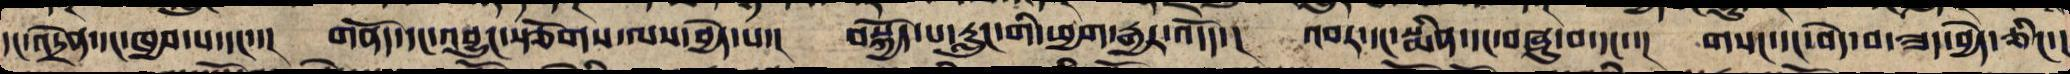དང་འདྲེན་དང་ཁྱབ་པ་དང་་། གནོད་དང་འབྱུང་རྩོགས་ལས་བྱེད་པ་། བསྐྱོད་པ་རླུང་གི་ཕྱག་རྒྱར་འདོད་། འབར་དང་སྨིན་དང་བཞུ་བ་དང་་། གསང་དང་བདེ་བ་ཟད་བྱེད་ཅིང་་།
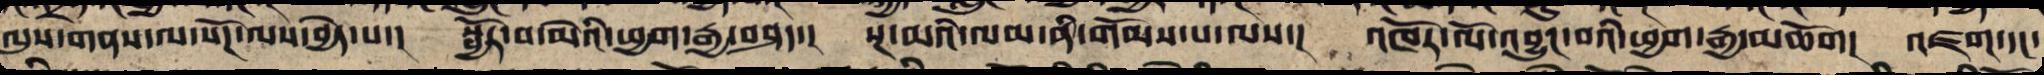ལུས་གནས་ལ་སོཌ་ལས་བྱེད་པ་། སྦྱོར་བ་མེ་ཡི་ཕྱག་རྒྱ་བཤད་། སྔ་མའི་ལམ་ནི་གོམས་པ་ལས་། འཁོར་ལོ་འབྱུང་བའི་ཕྱག་རྒྱ་མཆོག། འཛག་དང་
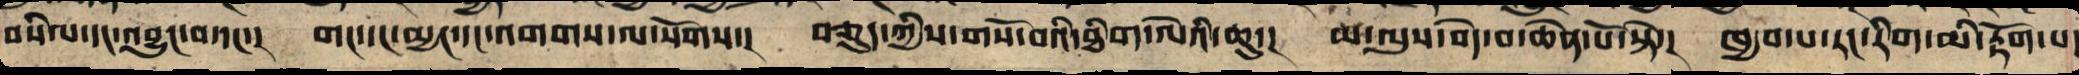བསིལ་དང་འབྱུང་བ་དང་་། གང་དང་མྱང་དང་འགགས་ལ་སོགས་། བཅུད་ཀྱི་གསོ་བའི་ཐིག་ལེའི་ཆུ་། མ་ལུས་བདེ་བ་ཆེན་པོ་སྟེ་། ཁྱབ་པ་རང་རིག་མི་རྟོག་པ་
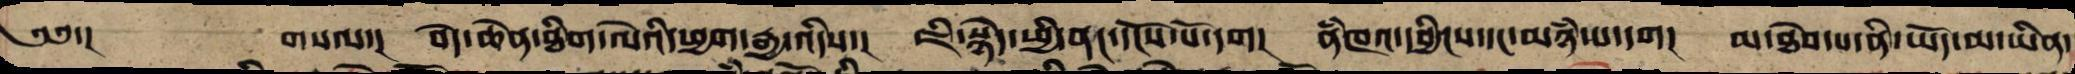༄༅་། གསལ་། བདེ་ཆེན་ཐིག་ལེའི་ཕྱག་རྒྱ་འདིས་། ཇི་སྙེད་ཕྱི་ནང་དངོས་པོ་དག། ནཾཁའི་དབྱིངས་དང་མཉམ་པ་དག། མ་ཐེབ་པ་ནི་ཡོད་མ་ཡིན་
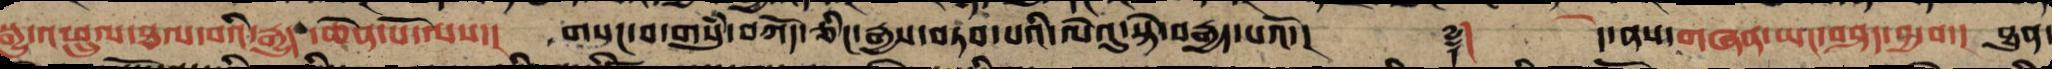སྒྱུ་འཕྲུལ་ཐལ་བའི་རྒྱུད་ཆེན་པོ་ལས་། གསང་བ་གསུཾ་བཀོད་ཅིང་རྒྱས་བཏབ་པའི་ལེའུ་སྟེ་བརྒྱད་པའོ་།། ༈། དེ་ནས་གཞན་ཡང་བཤད་བྱ་བ་། ཐུན་
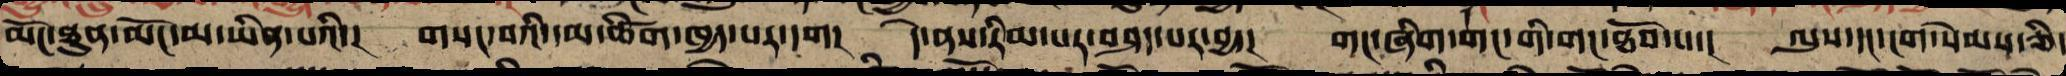མོང་ཐུན་མོང་མ་ཡིན་པའི་། གསང་བའི་དམ་ཚིག་ཁྱད་པར་དག། དེ་ནས་རིམ་པར་བཤད་པར་བྱ་། གང་ཞིག་གང་གིས་གང་ཐོབ་པ་། ལུས་དང་ངག་སེམས་ཅི་
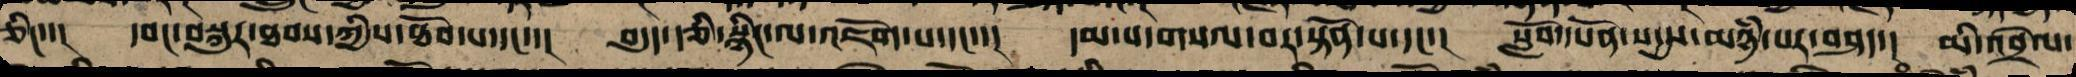ཅིང་་། དབང་བསྐུར་ཐབས་ཀྱིས་ཐོབ་པ་དང་་། བདུད་རྩི་སྙིང་ལ་འཇོག་པ་དང་་། དམ་པ་གསལ་བར་སྟོན་པ་དང་་། སློབ་དཔོན་སདྱས་མཉཾ་པར་བཤད་། མི་འབྲེལ་
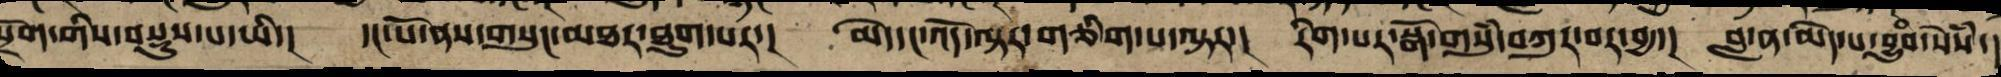སྲོག་གིས་བསྡུས་པ་ཡི་། དང་པོ་ནས་གསུང་མཐར་ཐུག་པར་། མེད་དང་འོད་དག་གཅིག་པ་ལྟར་། རིག་པར་སྒོ་གསུཾ་བཀུར་བར་བྱ་། བླ་ན་མེད་པ་བྱུཾབ་སེཾས་།
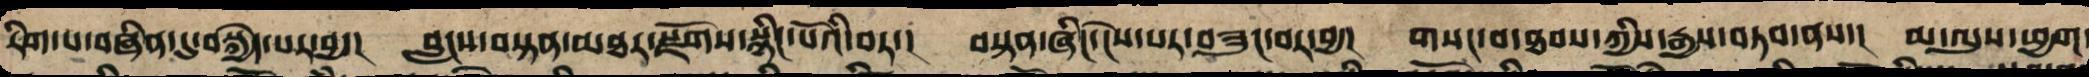རིམ་པ་བཞིན་དུ་བསྐྱེད་པར་བྱ་། བླངས་བསྟན་མཐར་སྫོགས་སྙིང་པོའི་བར་། བསྟན་ཞིང་ངེས་པར་གཟུང་བར་བྱ་། གསང་བ་ཐབས་ཀྱི་རྒྱས་བཏབ་ནས་། མ་ལུས་ཕྱག
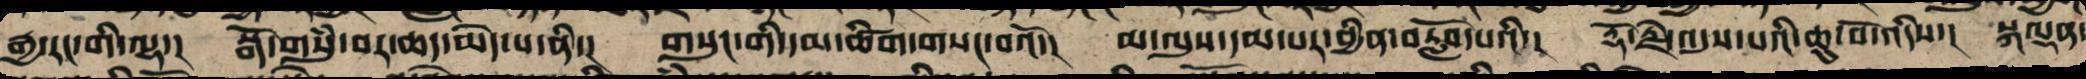རྒྱ་རང་གི་ལྷ་། སྒོ་གསུཾ་བར་ཆད་མེད་པ་ནི་། གསུང་གི་དམ་ཚིག་གསང་བའོ་། མ་ལུས་དམ་པར་ཕྱིན་བརློབ་པའི་། རྡོ་རྗེ་འདུས་པའི་ཆུ་བོ་འདིས་། སྐལྡན་
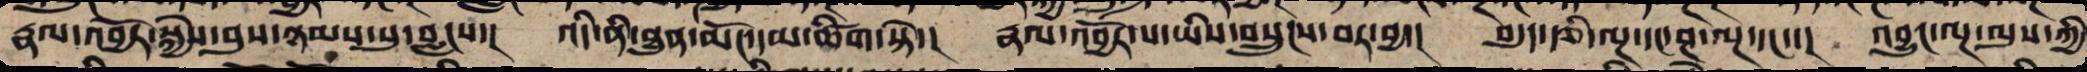རྣལ་འབྱོར་སྐྱེས་བུས་ཉམས་སུ་བླངས་། འདི་ནི་ཐུན་མོང་དམ་ཚིག་སྟེ་། རྣལ་འབྱོར་པ་ཡིས་བསྲུང་བར་བྱ་། བདུད་རྩི་ལྔ་དང་ཤ་ལྔ་དང་་། འབྱུང་ལྔ་ལུས་ཀྱི
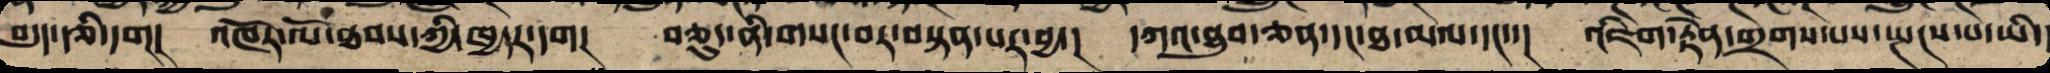བདུད་རྩི་དག། འཁོར་ལོ་ཐབས་ཀྱི་ཁྱདཔར་དག། བཅུད་ནི་གསང་བར་བརྟེན་པར་བྱ་། དཀའ་ཐུབ་ཅན་དང་ཐ་མལ་དང་་། འཇིག་རྟེན་གྲགས་པས་སྤངས་པ་ཡི་
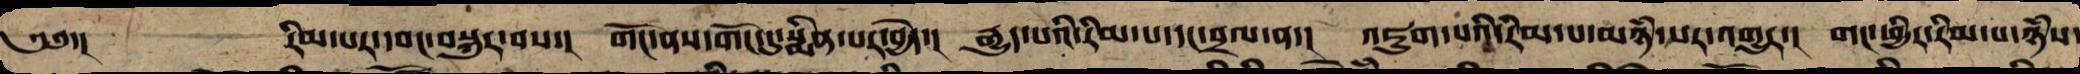༄༅་། རིམ་པར་དབང་བསྐུར་བས་། གོང་ནས་གོང་དུ་སྨིན་པར་བྱེད་། རྒྱུད་པའི་རིམ་པ་དང་བྲལ་ན་། འཇུག་པའི་རིམ་པ་ཉཾ་པར་འགྱུར་། གང་ཕྱིར་རིམ་པ་ཉཾས
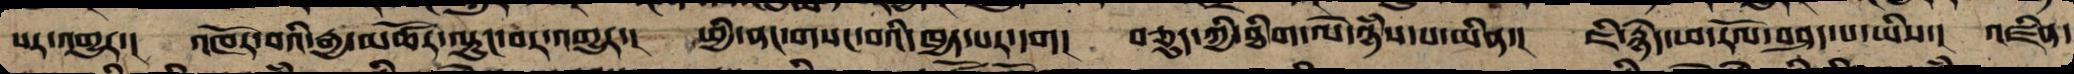པར་འགྱུར་། འཁོར་བའི་རྒྱ་མཚོར་ལྟུང་བར་འགྱུར་། ཕྱི་ནང་གསང་བའི་ཁྱད་པར་དག། བཅུད་ཀྱི་ཐིག་ལེ་ཉཾས་པ་ཡིན་། ཇི་སྙེད་ཕ་རོལ་བཤད་པ་ཡིས་། འཛིན་
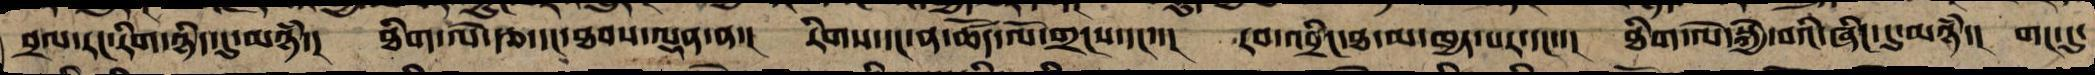བྲལ་རང་རིག་ཉིད་དུ་མཉཾ་། ཐིག་ལེ་རྩ་དང་ཐབས་ལྡན་ན་། རིགས་དང་ན་ཚོད་ལོ་གྲངས་དང་་། རབ་འབྲིང་ཐ་མ་ཁྱད་པར་དང་་། ཐིག་ལེ་སྐྱེ་བའི་ཞིང་དུ་མཉཾ་། གོང་དུ་
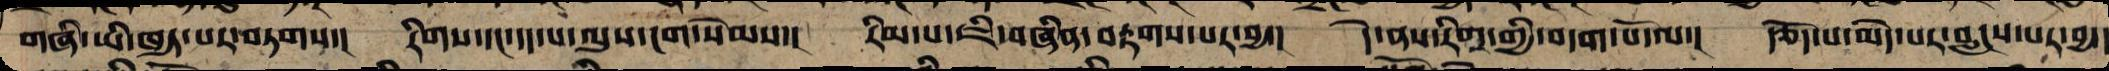བཞི་ཡི་ཁྱད་པར་བཏགས་། རིགས་དང་དད་པ་ལུས་ངག་སེམས་། རིམ་པ་ཇི་བཞིན་བརྟགས་པར་བྱ་། དེ་ནས་རིགས་ཀྱི་བདག་པོ་ལ་། རྩོད་པ་མེད་པར་བླངས་བར་བྱ་།
